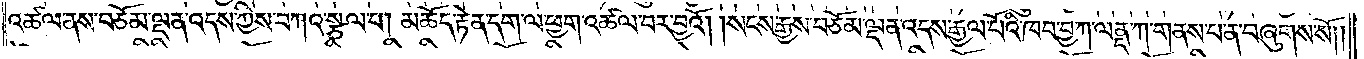འཚལ་ནས་བཅོམ་ལྡན་འདས་ཀྱིས་བཀའ་སྩལ་པ། མཆོད་རྟེན་དག་ལ་ཕྱག་འཚལ་བར་བྱའོ། །སངས་རྒྱས་བཅོམ་ལྡན་འདས་རྒྱལ་པོའི་ཁབ་བྱ་ཀ་ལནྡ་ཀ་གནས་པ་ན་བཞུགས་སོ༎
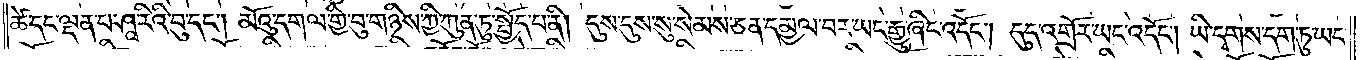ཚེ་དང་ལྡན་པ་ཤཱ་རིའི་བུ་དང༌། མོའུ་དགལ་གྱི་བུ་གཉིས་ཀྱི་ཀུན་ཏུ་སྤྱོད་པ་ནི། དུས་དུས་སུ་སེམས་ཅན་དམྱལ་བར་ཡང་རྒྱུ་ཞིང་འདོང༌། དུད་འགྲོར་ཡང་འདོང༌། ཡི་དྭགས་དག་ཏུ་ཡང་
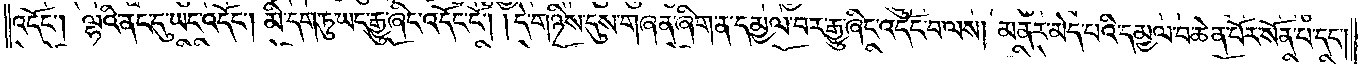འདོང༌། ལྷའི་ནང་དུ་ཡང་འདོང༌། མི་དག་ཏུ་ཡང་རྒྱུ་ཞིང་འདོང་ངོ༌། །དེ་གཉིས་དུས་གཞན་ཞིག་ན་དམྱལ་བར་རྒྱུ་ཞིང་འདོང་བ་ལས། མནར་མེད་པའི་དམྱལ་བ་ཆེན་པོར་སོན་པ་དང༌།
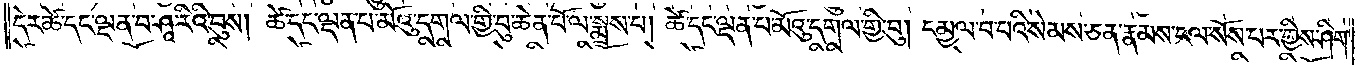དེར་ཚེ་དང་ལྡན་པ་ཤཱ་རིའི་བུས། ཚེ་དང་ལྡན་པ་མོའུ་དགལ་གྱི་བུ་ཆེན་པོ་ལ་སྨྲས་པ། ཚེ་དང་ལྡན་པ་མོའུ་དགལ་གྱི་བུ། དམྱལ་བ་པའི་སེམས་ཅན་རྣམས་ངལ་སོས་པར་གྱིས་ཤིག་
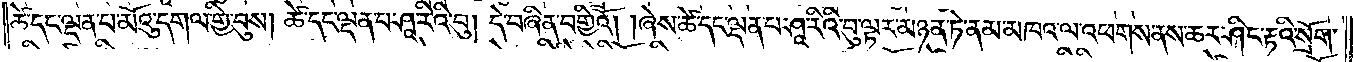ཚེ་དང་ལྡན་པ་མོའུ་དགལ་གྱི་བུས། ཚེ་དང་ལྡན་པ་ཤཱ་རིའི་བུ། དེ་བཞིན་བགྱིའོ། །ཞེས་ཚེ་དང་ལྡན་པ་ཤཱ་རིའི་བུ་ལྟར་མཉན་ཏེ་ནམ་མཁའ་ལ་འཕགས་ནས་ཆར་ཤིང་རྟའི་སྲོག་
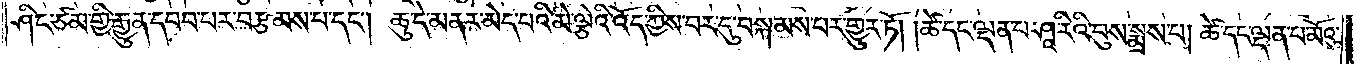ཤིང་ཙམ་གྱི་རྒྱུན་དབབ་པར་བརྩམས་པ་དང༌། ཆུ་དེ་མནར་མེད་པའི་མེ་ལྕེའི་འོད་ཀྱིས་བར་དུ་བསྐམས་པར་གྱུར་ཏོ། །ཚེ་དང་ལྡན་པ་ཤཱ་རིའི་བུས་སྨྲས་པ། ཚེ་དང་ལྡན་པ་མོའུ་
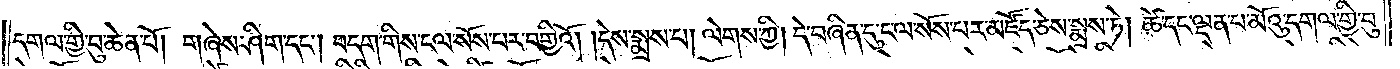དགལ་གྱི་བུ་ཆེན་པོ། གཞེས་ཤིག་དང༌། བདག་གིས་ངལ་སོས་པར་བགྱིའོ། །དེས་སྨྲས་པ། ལེགས་ཀྱི། དེ་བཞིན་དུ་ངལ་སོས་པར་མཛོད་ཅེས་སྨྲས་ཏེ། ཚེ་དང་ལྡན་པ་མོའུ་དགལ་གྱི་བུ་
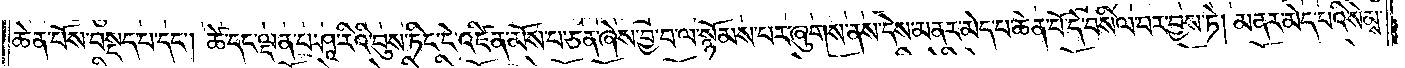ཆེན་པོས་བསྡད་པ་དང༌། ཚེ་དང་ལྡན་པ་ཤཱ་རིའི་བུས་ཏིང་ངེ་འཛིན་མོས་པ་ཅན་ཞེས་བྱ་བ་ལ་སྙོམས་པར་ཞུགས་ནས་དེས་མནར་མེད་པ་ཆེན་པོ་དེ་བསིལ་བར་བྱས་ཏེ། མནར་མེད་པའི་སེམས་
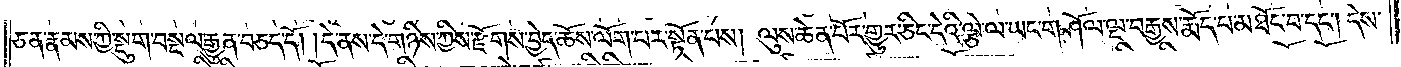ཅན་རྣམས་ཀྱི་སྡུག་བསྔལ་རྒྱུན་བཅད་དོ། །དེ་ནས་དེ་གཉིས་ཀྱིས་རྫོགས་བྱེད་ཆོས་ལོག་པར་སྟོན་པས། ལུས་ཆེན་པོར་གྱུར་ཅིང་དེའི་ལྕེ་ལ་ཡང་གཤོལ་ལྔ་བརྒྱས་རྨོད་པ་མཐོང་བ་དང༌། དེས་
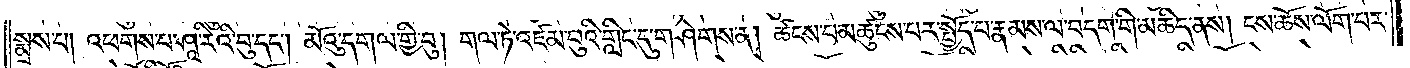སྨྲས་པ། འཕགས་པ་ཤཱ་རིའི་བུ་དང༌། མོའུ་དགལ་གྱི་བུ། གལ་ཏེ་འཛམ་བུའི་གླིང་དུ་གཤེགས་ན། ཚངས་པ་མཚུངས་པར་སྤྱོད་པ་རྣམས་ལ་བདག་གི་མཆིད་ནས། ངས་ཆོས་ལོག་པར་
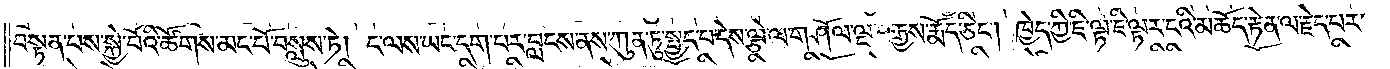བསྟན་པས་སྐྱེ་བོའི་ཚོགས་མང་པོ་བསླུས་ཏེ། ང་ལས་ཡང་དག་པར་བླངས་ནས་ཀུན་ཏུ་སྤྱད་པ་དེས་ལྕེ་ལ་གཤོལ་ལྔ་བརྒྱས་རྨོད་ཅིང༌། ཁྱེད་ཀྱི་ཇི་ལྟ་ཇི་ལྟར་ངའི་མཆོད་རྟེན་ལ་རྗེད་པར་
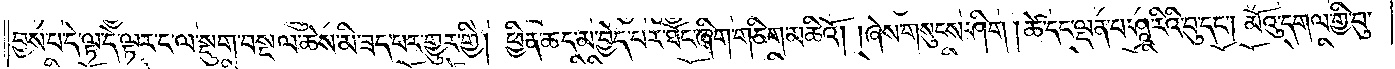བྱས་པ་དེ་ལྟ་དེ་ལྟར་ང་ལ་སྡུག་བསྔལ་ཆེས་མི་ཟད་པར་གྱུར་གྱི། ཕྱིན་ཆད་མ་བྱེད་པར་ཐོང་ཞིག་གཅིག་མཆིའོ། །ཞེས་གསུངས་ཤིག །ཚེ་དང་ལྡན་པ་ཤཱ་རིའི་བུ་དང༌། མོའུ་དགལ་གྱི་བུ་
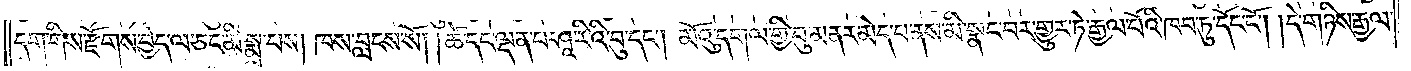དག་གིས་རྫོགས་བྱེད་ལ་ཅང་མི་སྨྲ་པས། ཁས་བླངས་སོ། །ཚེ་དང་ལྡན་པ་ཤཱ་རིའི་བུ་དང༌། མོའུ་དགལ་གྱི་བུ་མནར་མེད་པ་ནས་མི་སྣང་བར་གྱུར་ཏེ་རྒྱལ་པོའི་ཁབ་ཏུ་དོང་ངོ༌། །དེ་གཉིས་རྒྱལ་
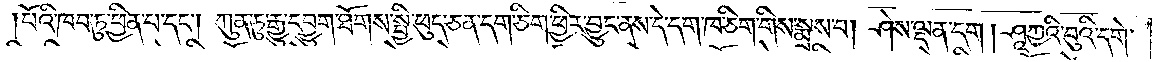པོའི་ཁབ་ཏུ་ཕྱིན་པ་དང༌། ཀུན་ཏུ་རྒྱུ་དབྱུག་ཐོགས་སྤྱི་ཕུད་ཅན་དག་ཅིག་ཕྱིར་བྱུང་ནས་དེ་དག་ཁ་ཅིག་གིས་སྨྲས་པ། ཤེས་ལྡན་དག །ཤཱཀྱའི་བུའི་དགེ་
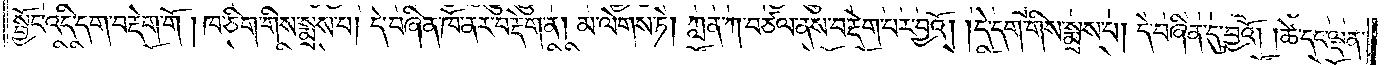སྦྱོང་འདི་དག་བརྡེག་གོ །ཁ་ཅིག་གིས་སྨྲས་པ། དེ་བཞིན་ཁོ་ནར་བརྡེག་ན། མ་ལེགས་ཏེ། ཀླན་ཀ་བཙལ་ནས་བརྡེག་པར་བྱའོ། །དེ་དག་གིས་སྨྲས་པ། དེ་བཞིན་དུ་བྱའོ། །ཚེ་དང་ལྡན་
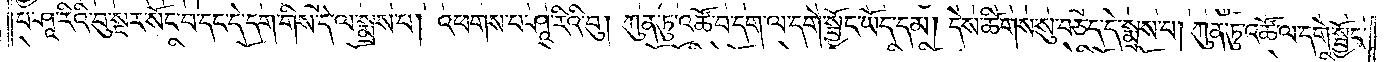པ་ཤཱ་རིའི་བུ་སྔར་སོང་བ་དང་དེ་དག་གིས་དེ་ལ་སྨྲས་པ། འཕགས་པ་ཤཱ་རིའི་བུ། ཀུན་ཏུ་འཚོ་བ་དག་ལ་དགེ་སྦྱོང་ཡོད་དམ། དེས་ཚིགས་སུ་བཅད་དེ་སྨྲས་པ། ཀུན་ཏུ་འཚོ་ལ་དགེ་སྦྱོང་
